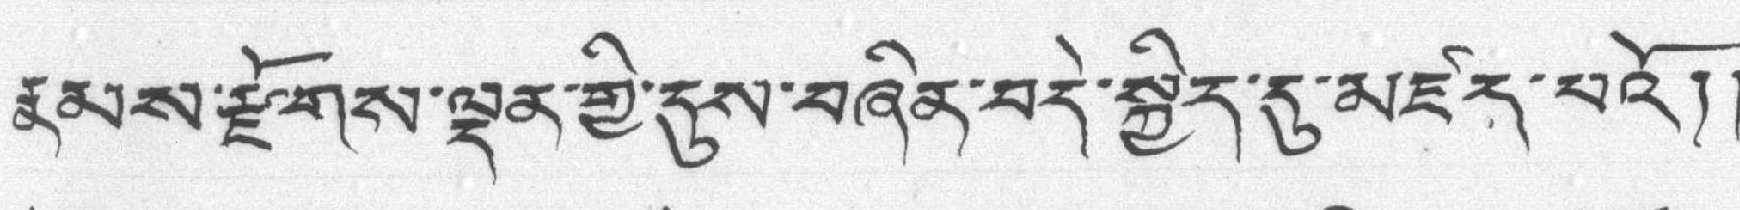རྣམས་རྫོགས་ལྡན་གྱི་དུས་བཞིན་བདེ་སྐྱིད་དུ་མཛད་པའོ།།
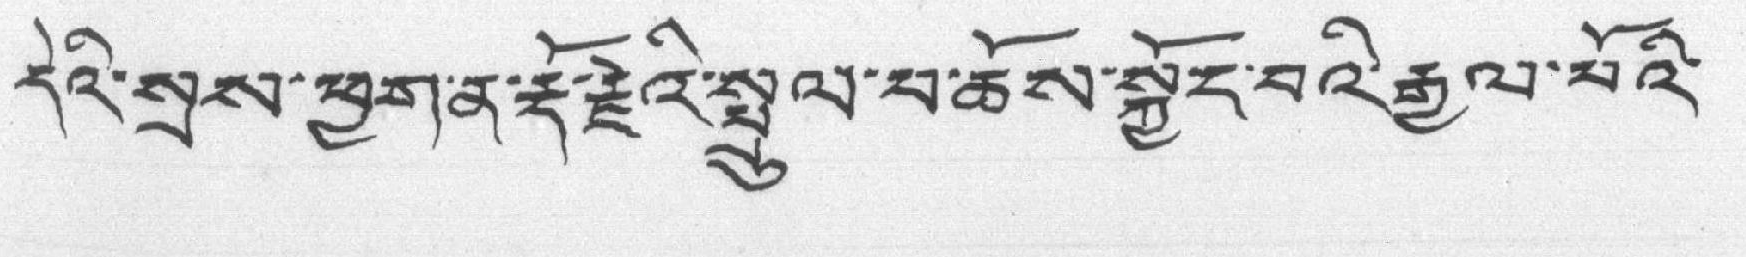དེའི་སྲས་ཕྱག་ན་རྡོ་རྗེའི་སྤྲུལ་བ་ཆོས་སྐྱོང་བའི་རྒྱལ་པོའི་
